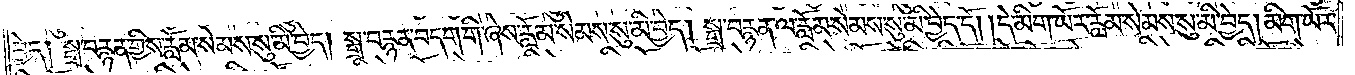བྱེད། སྒྲ་བརྙན་གྱིས་རློམ་སེམས་སུ་མི་བྱེད། སྒྲ་བརྙན་བདག་གི་ཞེས་རློམ་སེམས་སུ་མི་བྱེད། སྒྲ་བརྙན་ལ་རློམ་སེམས་སུ་མི་བྱེད་དོ། །དེ་མིག་ཡོར་རློམ་སེམས་སུ་མི་བྱེད། མིག་ཡོར་
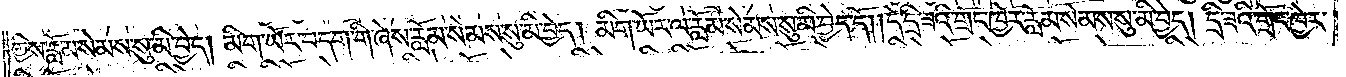གྱིས་རློམ་སེམས་སུ་མི་བྱེད། མིག་ཡོར་བདག་གི་ཞེས་རློམ་སེམས་སུ་མི་བྱེད། མིག་ཡོར་ལ་རློམ་སེམས་སུ་མི་བྱེད་དོ། །དེ་དྲི་ཟའི་གྲོང་ཁྱེར་རློམ་སེམས་སུ་མི་བྱེད། དྲི་ཟའི་གྲོང་ཁྱེར་
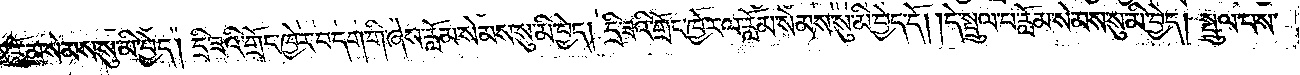གྱིས་རློམ་སེམས་སུ་མི་བྱེད། དྲི་ཟའི་གྲོང་ཁྱེར་བདག་གི་ཞེས་རློམ་སེམས་སུ་མི་བྱེད། དྲི་ཟའི་གྲོང་ཁྱེར་ལ་རློམ་སེམས་སུ་མི་བྱེད་དོ། །དེ་སྤྲུལ་པ་རློམ་སེམས་སུ་མི་བྱེད། སྤྲུལ་པས་
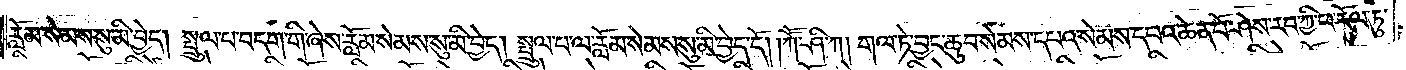རློམ་སེམས་སུ་མི་བྱེད། སྤྲུལ་པ་བདག་གི་ཞེས་རློམ་སེམས་སུ་མི་བྱེད། སྤྲུལ་པ་ལ་རློམ་སེམས་སུ་མི་བྱེད་དོ། །ཀཽ་ཤི་ཀ། གལ་ཏེ་བྱང་ཆུབ་སེམས་དཔའ་སེམས་དཔའ་ཆེན་པོ་ཤེས་རབ་ཀྱི་ཕ་རོལ་ཏུ་
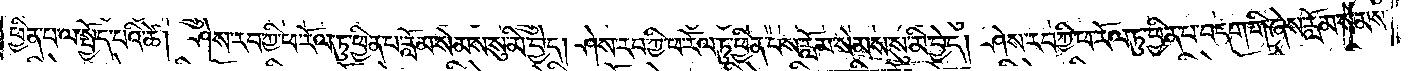ཕྱིན་པ་ལ་སྤྱོད་པའི་ཚེ། ཤེས་རབ་ཀྱི་ཕ་རོལ་ཏུ་ཕྱིན་པ་རློམ་སེམས་སུ་མི་བྱེད། ཤེས་རབ་ཀྱི་ཕ་རོལ་ཏུ་ཕྱིན་པས་རློམ་སེམས་སུ་མི་བྱེད། ཤེས་རབ་ཀྱི་ཕ་རོལ་ཏུ་ཕྱིན་པ་བདག་གི་ཞེས་རློམ་སེམས་
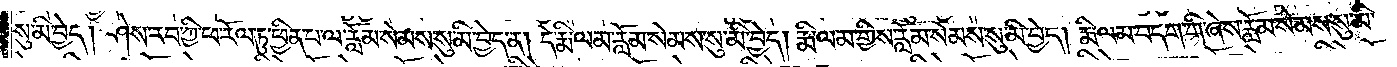སུ་མི་བྱེད། ཤེས་རབ་ཀྱི་ཕ་རོལ་ཏུ་ཕྱིན་པ་ལ་རློམ་སེམས་སུ་མི་བྱེད་ན། དེ་རྨི་ལམ་རློམ་སེམས་སུ་མི་བྱེད། རྨི་ལམ་གྱིས་རློམ་སེམས་སུ་མི་བྱེད། རྨི་ལམ་བདག་གི་ཞེས་རློམ་སེམས་སུ་མི་
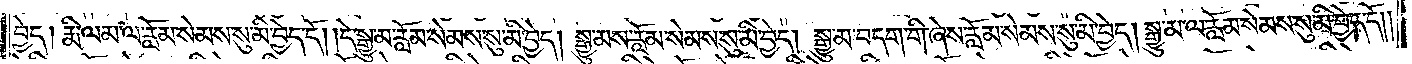བྱེད། རྨི་ལམ་ལ་རློམ་སེམས་སུ་མི་བྱེད་དོ། །དེ་སྒྱུ་མ་རློམ་སེམས་སུ་མི་བྱེད། སྒྱུ་མས་རློམ་སེམས་སུ་མི་བྱེད། སྒྱུ་མ་བདག་གི་ཞེས་རློམ་སེམས་སུ་མི་བྱེད། སྒྱུ་མ་ལ་རློམ་སེམས་སུ་མི་བྱེད་དོ། །
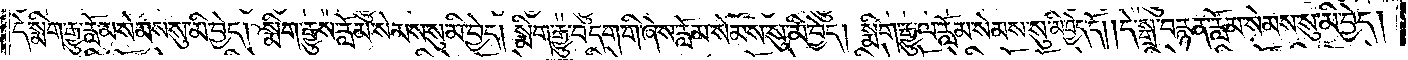དེ་སྨིག་རྒྱུ་རློམ་སེམས་སུ་མི་བྱེད། སྨིག་རྒྱུས་རློམ་སེམས་སུ་མི་བྱེད། སྨིག་རྒྱུ་བདག་གི་ཞེས་རློམ་སེམས་སུ་མི་བྱེད། སྨིག་རྒྱུ་ལ་རློམ་སེམས་སུ་མི་བྱེད་དོ། །དེ་སྒྲ་བརྙན་རློམ་སེམས་སུ་མི་བྱེད།
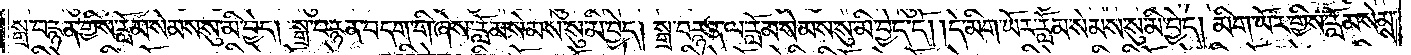སྒྲ་བརྙན་གྱིས་རློམ་སེམས་སུ་མི་བྱེད། སྒྲ་བརྙན་བདག་གི་ཞེས་རློམ་སེམས་སུ་མི་བྱེད། སྒྲ་བརྙན་ལ་རློམ་སེམས་སུ་མི་བྱེད་དོ། །དེ་མིག་ཡོར་རློམ་སེམས་སུ་མི་བྱེད། མིག་ཡོར་གྱིས་རློམ་སེམས་
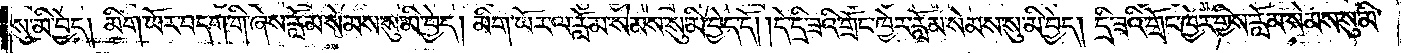སུ་མི་བྱེད། མིག་ཡོར་བདག་གི་ཞེས་རློམ་སེམས་སུ་མི་བྱེད། མིག་ཡོར་ལ་རློམ་སེམས་སུ་མི་བྱེད་དོ། །དེ་དྲི་ཟའི་གྲོང་ཁྱེར་རློམ་སེམས་སུ་མི་བྱེད། དྲི་ཟའི་གྲོང་ཁྱེར་གྱིས་རློམ་སེམས་སུ་མི་
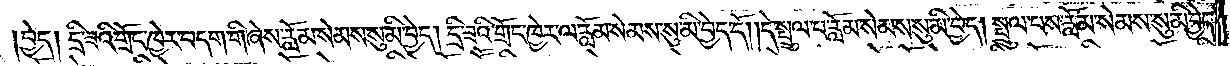བྱེད། དྲི་ཟའི་གྲོང་ཁྱེར་བདག་གི་ཞེས་རློམ་སེམས་སུ་མི་བྱེད། དྲི་ཟའི་གྲོང་ཁྱེར་ལ་རློམ་སེམས་སུ་མི་བྱེད་དོ། །དེ་སྤྲུལ་པ་རློམ་སེམས་སུ་མི་བྱེད། སྤྲུལ་པས་རློམ་སེམས་སུ་མི་བྱེད།
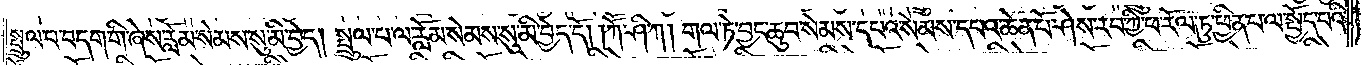སྤྲུལ་པ་བདག་གི་ཞེས་རློམ་སེམས་སུ་མི་བྱེད། སྤྲུལ་པ་ལ་རློམ་སེམས་སུ་མི་བྱེད་དོ། །ཀཽ་ཤི་ཀ། གལ་ཏེ་བྱང་ཆུབ་སེམས་དཔའ་སེམས་དཔའ་ཆེན་པོ་ཤེས་རབ་ཀྱི་ཕ་རོལ་ཏུ་ཕྱིན་པ་ལ་སྤྱོད་པའི་
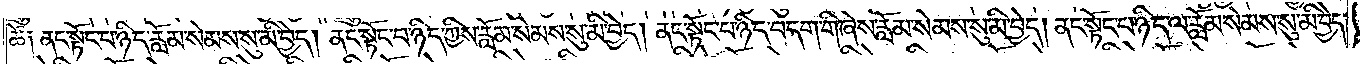ཚེ༑ ནང་སྟོང་པ་ཉིད་རློམ་སེམས་སུ་མི་བྱེད། ནང་སྟོང་པ་ཉིད་ཀྱིས་རློམ་སེམས་སུ་མི་བྱེད། ནང་སྟོང་པ་ཉིད་བདག་གི་ཞེས་རློམ་སེམས་སུ་མི་བྱེད། ནང་སྟོང་པ་ཉིད་ལ་རློམ་སེམས་སུ་མི་བྱེད་
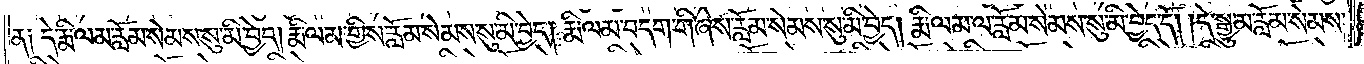ན༑ དེ་རྨི་ལམ་རློམ་སེམས་སུ་མི་བྱེད། རྨི་ལམ་གྱིས་རློམ་སེམས་སུ་མི་བྱེད། རྨི་ལམ་བདག་གི་ཞེས་རློམ་སེམས་སུ་མི་བྱེད། རྨི་ལམ་ལ་རློམ་སེམས་སུ་མི་བྱེད་དོ། །དེ་སྒྱུ་མ་རློམ་སེམས་
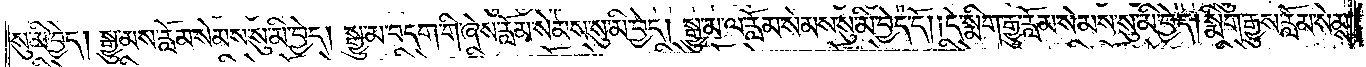སུ་མི་བྱེད། སྒྱུ་མས་རློམ་སེམས་སུ་མི་བྱེད། སྒྱུ་མ་བདག་གི་ཞེས་རློམ་སེམས་སུ་མི་བྱེད། སྒྱུ་མ་ལ་རློམ་སེམས་སུ་མི་བྱེད་དོ། །དེ་སྨིག་རྒྱུ་རློམ་སེམས་སུ་མི་བྱེད། སྨིག་རྒྱུས་རློམ་སེམས་
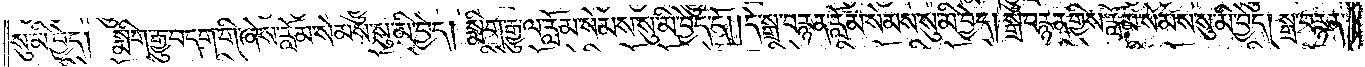སུ་མི་བྱེད། སྨིག་རྒྱུ་བདག་གི་ཞེས་རློམ་སེམས་སུ་མི་བྱེད། སྨིག་རྒྱུ་ལ་རློམ་སེམས་སུ་མི་བྱེད་དོ། །དེ་སྒྲ་བརྙན་རློམ་སེམས་སུ་མི་བྱེད། སྒྲ་བརྙན་གྱིས་རློམ་སེམས་སུ་མི་བྱེད། སྒྲ་བརྙན་
